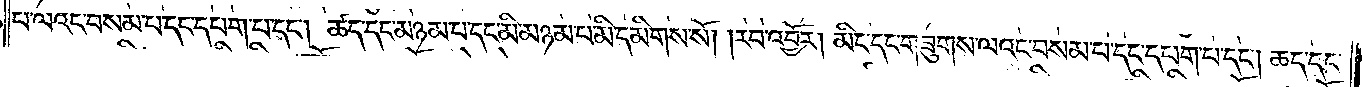པ་ལའང་བསམ་པ་དང་དཔག་པ་དང༌། ཚད་དང་མཉམ་པ་དང་མི་མཉམ་པ་མི་དམིགས་སོ། །རབ་འབྱོར། མིང་དང་གཟུགས་ལའང་བསམ་པ་དང་དཔག་པ་དང༌། ཚད་དང་
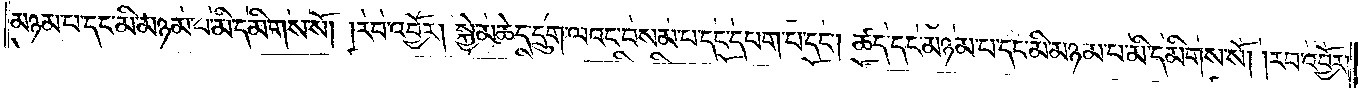མཉམ་པ་དང་མི་མཉམ་པ་མི་དམིགས་སོ། །རབ་འབྱོར། སྐྱེ་མཆེད་དྲུག་ལའང་བསམ་པ་དང་དཔག་པ་དང༌། ཚད་དང་མཉམ་པ་དང་མི་མཉམ་པ་མི་དམིགས་སོ། །རབ་འབྱོར།
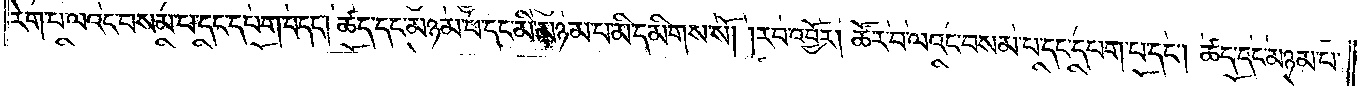རེག་པ་ལའང་བསམ་པ་དང་དཔག་པ་དང༌། ཚད་དང་མཉམ་པ་དང་མི་མཉམ་པ་མི་དམིགས་སོ། །རབ་འབྱོར། ཚོར་བ་ལའང་བསམ་པ་དང་དཔག་པ་དང༌། ཚད་དང་མཉམ་པ་
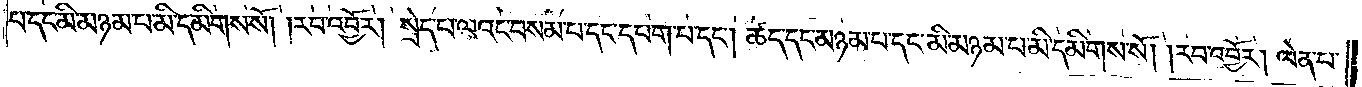པ་དང་མི་མཉམ་པ་མི་དམིགས་སོ། །རབ་འབྱོར། སྲེད་པ་ལའང་བསམ་པ་དང་དཔག་པ་དང༌། ཚད་དང་མཉམ་པ་དང་མི་མཉམ་པ་མི་དམིགས་སོ། །རབ་འབྱོར། ལེན་པ་
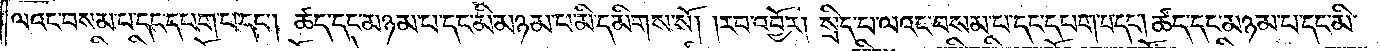ལའང་བསམ་པ་དང་དཔག་པ་དང༌། ཚད་དང་མཉམ་པ་དང་མི་མཉམ་པ་མི་དམིགས་སོ། །རབ་འབྱོར། སྲིད་པ་ལའང་བསམ་པ་དང་དཔག་པ་དང༌། ཚད་དང་མཉམ་པ་དང་མི་
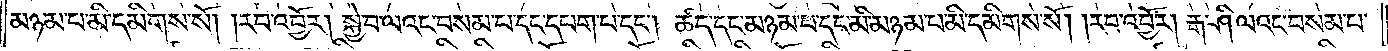མཉམ་པ་མི་དམིགས་སོ། །རབ་འབྱོར། སྐྱེ་བ་ལའང་བསམ་པ་དང་དཔག་པ་དང༌། ཚད་དང་མཉམ་པ་དང་མི་མཉམ་པ་མི་དམིགས་སོ། །རབ་འབྱོར། རྒ་ཤི་ལའང་བསམ་པ་
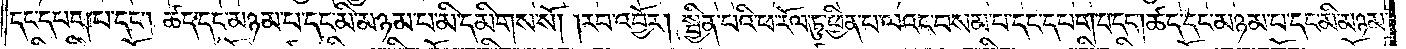དང་དཔག་པ་དང༌། ཚད་དང་མཉམ་པ་དང་མི་མཉམ་པ་མི་དམིགས་སོ། །རབ་འབྱོར། སྦྱིན་པའི་ཕ་རོལ་ཏུ་ཕྱིན་པ་ལའང་བསམ་པ་དང་དཔག་པ་དང༌། ཚད་དང་མཉམ་པ་དང་མི་མཉམ་
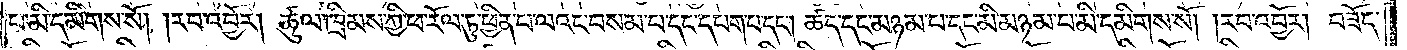པ་མི་དམིགས་སོ། །རབ་འབྱོར། ཚུལ་ཁྲིམས་ཀྱི་ཕ་རོལ་ཏུ་ཕྱིན་པ་ལའང་བསམ་པ་དང་དཔག་པ་དང༌། ཚད་དང་མཉམ་པ་དང་མི་མཉམ་པ་མི་དམིགས་སོ། །རབ་འབྱོར། བཟོད་
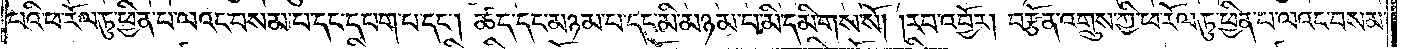པའི་ཕ་རོལ་ཏུ་ཕྱིན་པ་ལའང་བསམ་པ་དང་དཔག་པ་དང༌། ཚད་དང་མཉམ་པ་དང་མི་མཉམ་པ་མི་དམིགས་སོ། །རབ་འབྱོར། བརྩོན་འགྲུས་ཀྱི་ཕ་རོལ་ཏུ་ཕྱིན་པ་ལའང་བསམ་
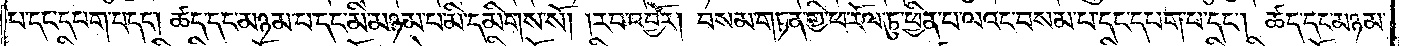པ་དང་དཔག་པ་དང༌། ཚད་དང་མཉམ་པ་དང་མི་མཉམ་པ་མི་དམིགས་སོ། །རབ་འབྱོར། བསམ་གཏན་གྱི་ཕ་རོལ་ཏུ་ཕྱིན་པ་ལའང་བསམ་པ་དང་དཔག་པ་དང༌། ཚད་དང་མཉམ་
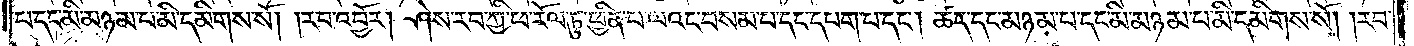པ་དང་མི་མཉམ་པ་མི་དམིགས་སོ། །རབ་འབྱོར། ཤེས་རབ་ཀྱི་ཕ་རོལ་ཏུ་ཕྱིན་པ་ལའང་བསམ་པ་དང་དཔག་པ་དང༌། ཚད་དང་མཉམ་པ་དང་མི་མཉམ་པ་མི་དམིགས་སོ། །རབ་
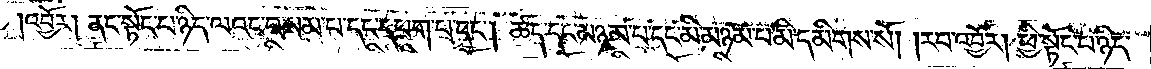འབྱོར། ནང་སྟོང་པ་ཉིད་ལའང་བསམ་པ་དང་དཔག་པ་དང༌། ཚད་དང་མཉམ་པ་དང་མི་མཉམ་པ་མི་དམིགས་སོ། །རབ་འབྱོར། ཕྱི་སྟོང་པ་ཉིད་
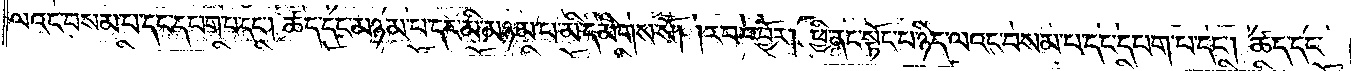ལའང་བསམ་པ་དང་དཔག་པ་དང༌། ཚད་དང་མཉམ་པ་དང་མི་མཉམ་པ་མི་དམིགས་སོ། །རབ་འབྱོར། ཕྱི་ནང་སྟོང་པ་ཉིད་ལའང་བསམ་པ་དང་དཔག་པ་དང༌། ཚད་དང་
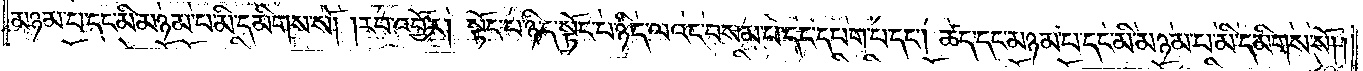མཉམ་པ་དང་མི་མཉམ་པ་མི་དམིགས་སོ། །རབ་འབྱོར། སྟོང་པ་ཉིད་སྟོང་པ་ཉིད་ལའང་བསམ་པ་དང་དཔག་པ་དང༌། ཚད་དང་མཉམ་པ་དང་མི་མཉམ་པ་མི་དམིགས་སོ། །
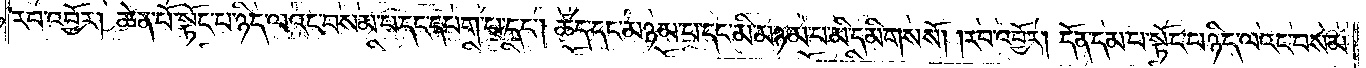རབ་འབྱོར། ཆེན་པོ་སྟོང་པ་ཉིད་ལའང་བསམ་པ་དང་དཔག་པ་དང༌། ཚད་དང་མཉམ་པ་དང་མི་མཉམ་པ་མི་དམིགས་སོ། །རབ་འབྱོར། དོན་དམ་པ་སྟོང་པ་ཉིད་ལའང་བསམ་
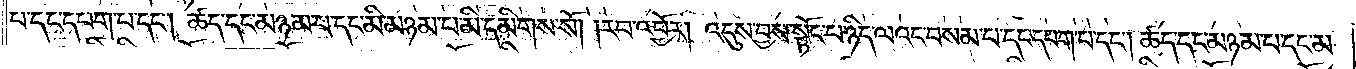པ་དང་དཔག་པ་དང༌། ཚད་དང་མཉམ་པ་དང་མི་མཉམ་པ་མི་དམིགས་སོ། །རབ་འབྱོར། འདུས་བྱས་སྟོང་པ་ཉིད་ལའང་བསམ་པ་དང་དཔག་པ་དང༌། ཚད་དང་མཉམ་པ་དང་མ་
